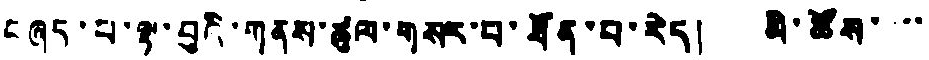བཞད་པ་ལྟ་བུའི་གནས་ཚུལ་གསར་པ་ཐོན་པ་རེད། མི་ཚོས་་་་
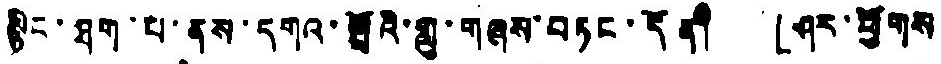སྙིང་ཐག་པ་ནས་དགའ་སྤྲོའི་གླུ་གཞས་བཏང་དོན། 「ཤར་ཕྱོགས
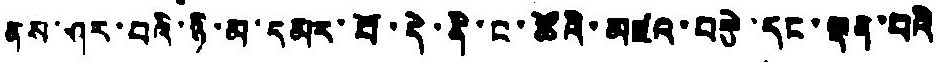ནས་ཤར་བའི་ཉི་མ་དམར་པོ་དེ་ནི་ང་ཚོའི་མཛའ་བརྩེ་དང་ལྡན་པའི
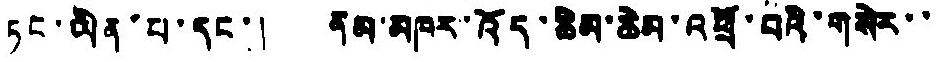ཏང་ཡིན་པ་དང་། ནམ་མཁར་འོད་ཆེམ་ཆེམ་འཕྲོ་བའི་གསེར་་
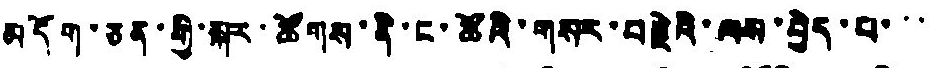མདོག་ཅན་གྱི་སྐར་ཚོགས་ནི་ང་ཚོའི་གསར་བརྗེའི་ལས་བྱེད་པ་་་
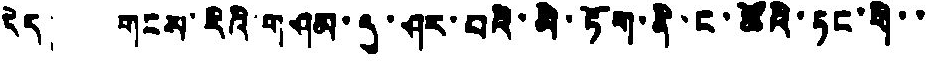རེད། གངས་རིའི་གཤམ་དུ་ཤར་བའི་མི་ཏོག་ནི་ང་ཚོའི་ཏང་གི་་
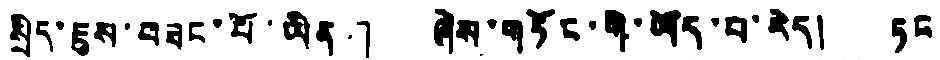སྲིད་ཇུས་བཟང་པོ་ཡིན་」 ཞེས་གཏོང་གི་ཡོད་པ་རེད། ཏང
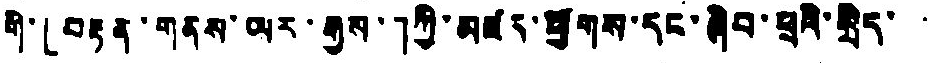གི་「བརྟན་གནས་ཡར་རྒྱས་」ཀྱི་མཛད་ཕྱོགས་དང་ཞིབ་ཕྲའི་སྲིད་
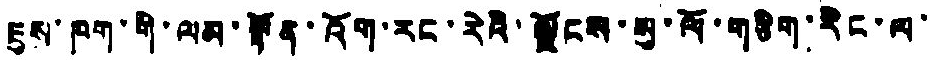ཇུས་ཁག་གི་ལམ་སྟོན་འོག་རང་རེའི་ལྗོངས་སུ་ལོ་གཅིག་རིང་ལ་
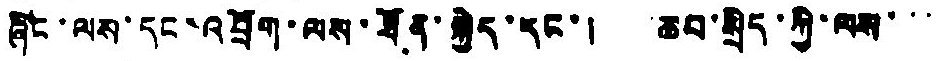ཞིང་ལས་དང་འབྲོག་ལས་ཐོན་སྐྱེད་དང་། ཆབ་སྲིད་ཀྱི་ལས་་་
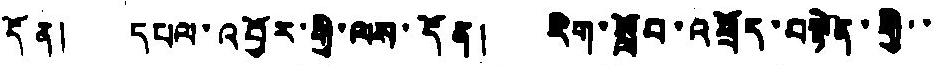དོན། དཔལ་འབྱོར་གྱི་ལས་དོན། རིག་སློབ་འཕྲོད་བསྟེན་གྱི་་
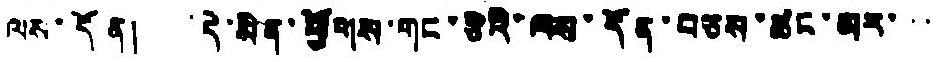ལས་དོན། དེ་མིན་ཕྱོགས་གང་ཅིའི་ལས་དོན་བཅས་ཚང་མར་་་
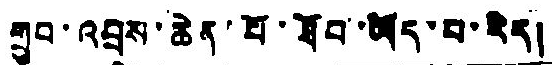གྲུབ་འབྲས་ཆེན་པོ་ཐོབ་ཡོད་པ་རེད།
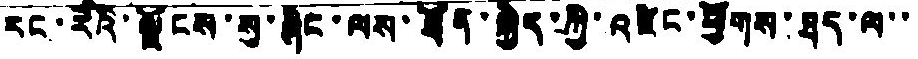རང་རེའི་ལྗོངས་སྒྱ་ཞིང་ལས་ཐོན་སྐྱེད་ཀྱི་འཛིང་ཕྱོགས་ཐད་ལ་་
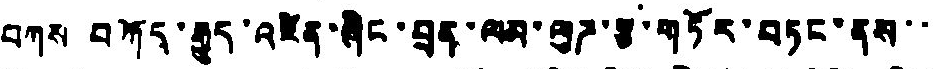བཀས བཀོད་རྒྱུད་འཛིན་ཞིང་བྲན་ལམ་ལུཌ་རྩ་གཏོར་བཏང་ནས་་
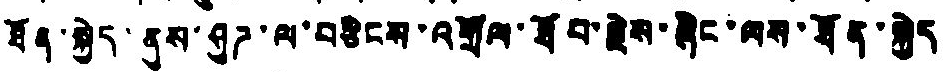ཐོན་སྐྱེད་ནུས་ཤུཌ་ལ་བཅིངས་འགྲོལ་ཐོབ་རྗེས་ཞིང་ལས་ཐོན་སྐྱེད
